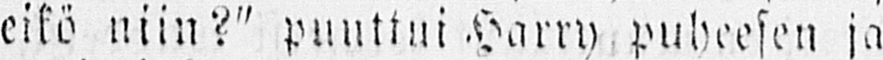eikö niin?" puuttui Harry puheesen ja
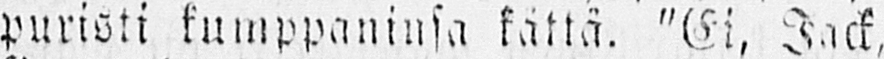puristi kumppaninsa kättä. "Ei, Jack,
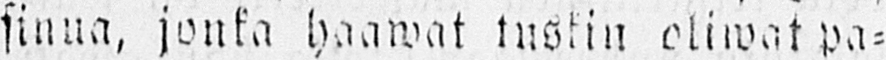sinua, jonka haawat tuskin oliwat pa-
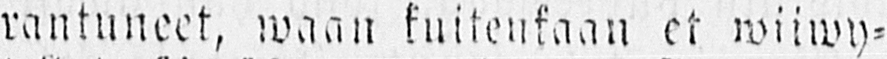rantuneet, waan kuitenkaan et wiiwy-
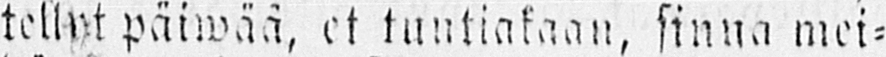tellyt päiwää, et tuntiakaan, sinna mei-
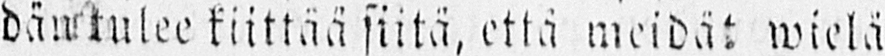dän tulee kiittää siitä, että meidät wielä
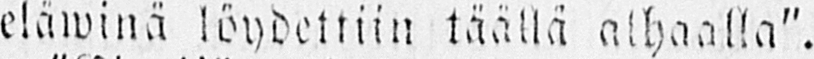eläwinä löydettiin täällä alhaalla".
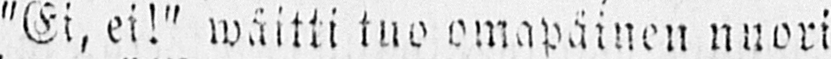"Ei, ei!" wäitti tuo omapäinen nuori
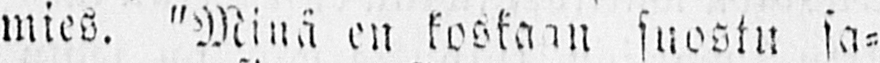mies. "Minä en koskaan suostu sa-
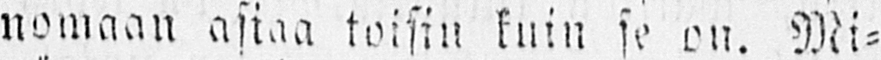nomaan asiaa toisin kuin se on. Mi-
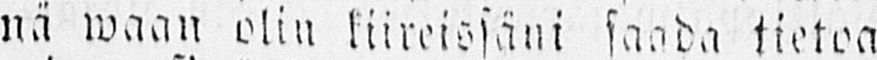nä waan olin kiireissäni saada tietoa
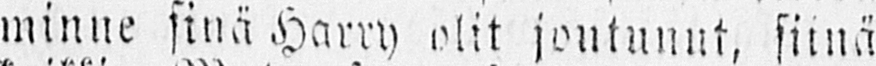minne sinä Harry olit joutunut, siinä
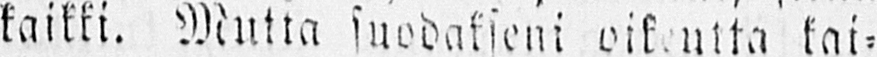kaikki. Mutta suodakseni oikeutta kai-
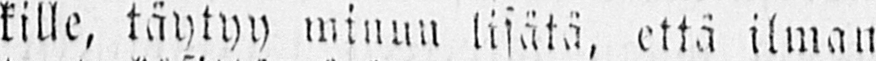kille, täytyy minun lisätä, että ilman
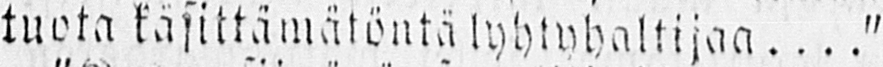tuota käsittämätöntä lyhtyhaltijaa"
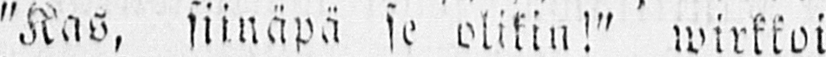"Kas, siinäpä se olikin!" wirkkoi
